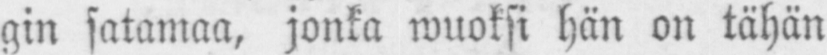gin satamaa, jonka wuoksi hän on tähän
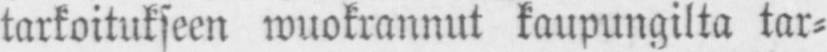tarkoitukseen wuokrannut kaupungilta tar-
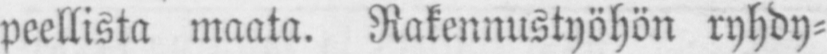peellista maata. Rakennustyöhön ryhdy-
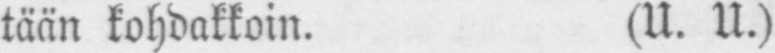tään kohdakkoin. (U.U.)
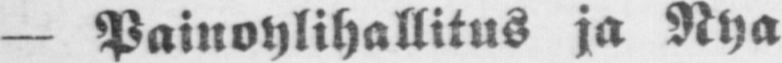— Painoylihallitus ja Nya
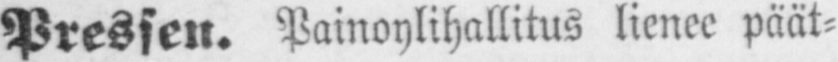Pressen. Painoylihallitus lienee päät-
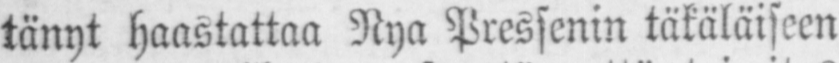tänyt haastattaa Nya Pressenin täkäläiseen
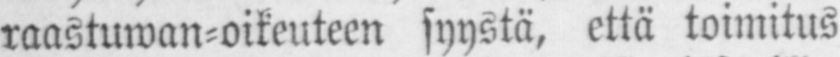raastuwan-oikeuteen syystä, että toimitus
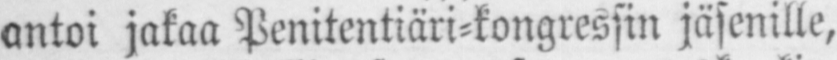antoi jakaa Penitentiäri-kongressin jäsenille,
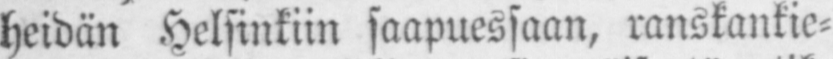heidän Helsinkiin saapuessaan, ranskankie-
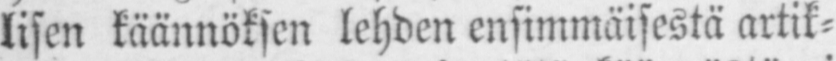lisen käännöksen lehden ensimmäisestä artik-
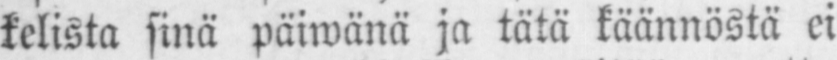kelista sinä päiwänä ja tätä käännöstä ei
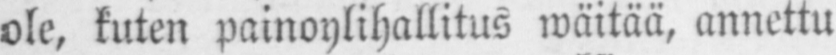ole, kuten painoylihallitus wäitää, annettu
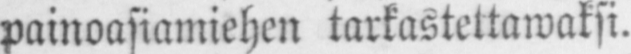painoasiamiehen tarkastettawaksi.
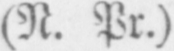(N.Pr.)
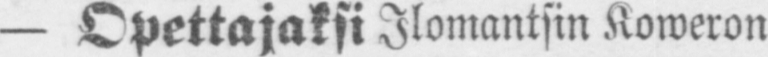— Opettajaksi Ilomantsin Koweron
